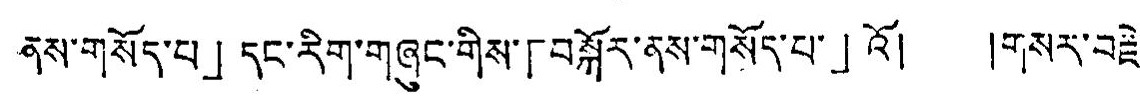ནས་གསོད་པ」དང་རིག་གཞུང་གིས་「བསྐོར་ནས་གསོད་པ་」འོ། །གསར་བརྗེ་
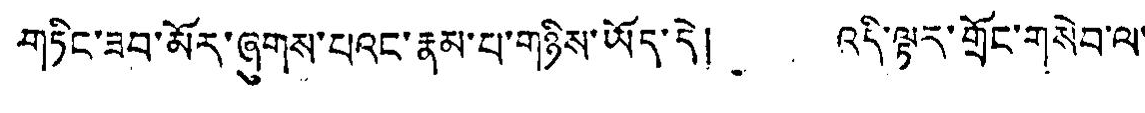གཏིང་ཟབ་མོར་ཞུགས་པའང་རྣམ་པ་གཉིས་ཡོད་དེ། འདི་ལྟར་གྲོང་གསེབ་ལ་
